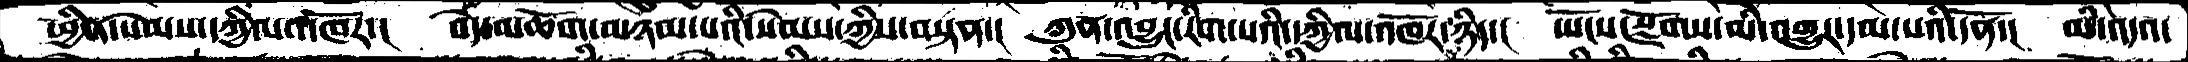ཕྱིན་སེམས་དཀྱིལ་འཁོར་།   བདེ་མཆོག་མཉམ་པའི་སེམས་ཀྱིས་བསྟན་།  ཀུན་འབྱུང་རིག་པའི་དཀྱིལ་འཁོར་ཉིད་།  ཡོངས་སྫོགས་མི་འགྱུར་དམ་པའི་དོན་།  མི་འདའ་
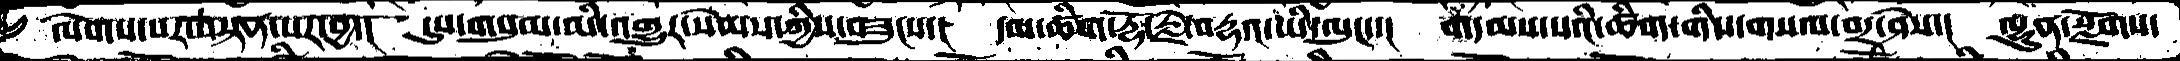ལེགས་པར་བསྟན་པར་བྱ་།  དུས་གསུམ་མི་འགྱུར་སེམས་ཀྱིས་བཟུངས་།  དམ་ཚིག་རྡོ་རྗེ་བརྡའ་ཡི་ལུང་་།   གདམས་པའི་ཚིག་གིས་གསལ་བར་ཤེས་།  ལྷུན་སྫོགས་
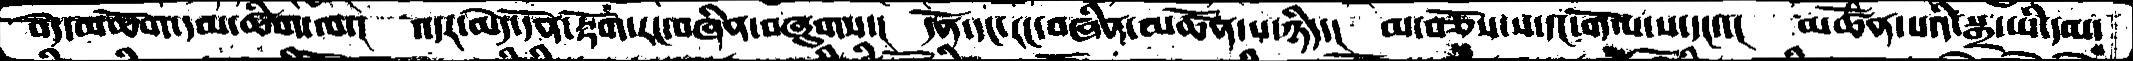བདེ་མཆོག་དམ་ཚིག་ལ་།   འདར་མེད་དོན་རྟོག་རང་བཞིན་བཞུགས་།  དོན་དང་རང་བཞིན་མཚོན་པ་ཉིད་།  མ་བཅོས་ས་དང་གོལ་ས་དང་་།  མཚོན་པའི་སྒྲ་ཡི་དམ་
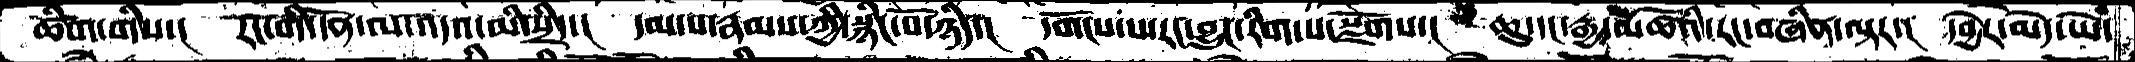ཚིག་གིས་།  རང་གི་དོན་ལ་འདའ་མི་སྲིད་།  དམ་པ་རྣམས་ཀྱི་སྙིང་པོ་ཉིད་།  དགོངས་པ་རང་བྱུང་རིག་པ་སྫོགས་།  ཆུ་དང་རྒྱ་མཚོའི་རང་བཞིན་ལྟར་།  དབྱེར་མེད་ཡེ་
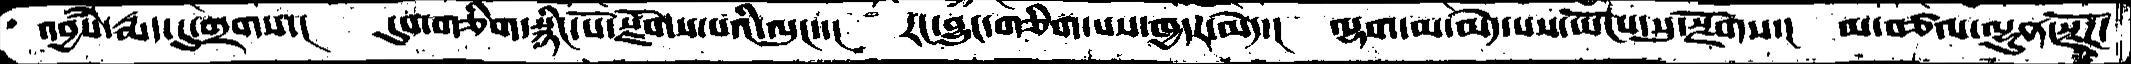འབྱཾས་རྨད་དུ་གྲགས་།  དུས་གཅིག་སྙིང་པོ་སྫོགས་པའི་ལུང་་།  རང་བྱུང་གཅིག་པས་ཁྱདར་མེད་།  ལྷག་མ་མེད་པས་ཡོངས་སུ་སྫོགས་།  མ་བཙལ་ལྷུན་སྫོཌ་
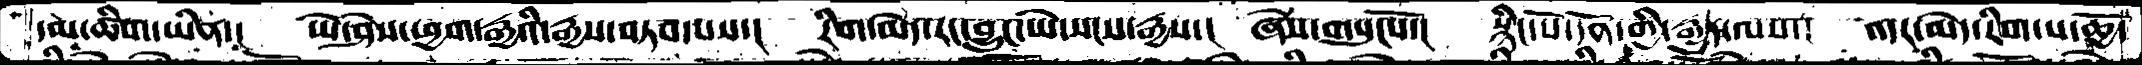དམ་ཚིག་ཡིན་།  ཡེ་ཤེས་ཕྱག་རྒྱའི་རྒྱས་བཏབ་པས་།  རིག་མེད་རང་བྱུང་ཡེ་སངས་རྒྱས་།  ཞེས་གསུངསོ་།  སྙིང་པོ་དོན་གྱི་རྒྱུད་ལས་།  འདར་མེད་རིག་པ་ཆྱོ་
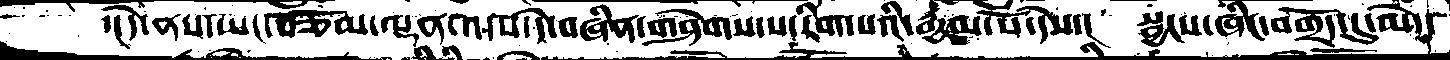་།དེ་ནས་ཡང་བཅོམ་ལྡན་འདས་དེ་བཞིན་གཤེགས་པ་རིག་པའི་རྒྱལ་པོ་དེས་།  སྦྱངས་ཞིང་བགྲོད་དུ་མེད་
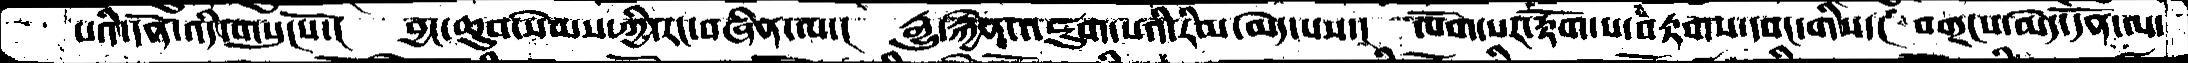པའི་དོན་འདི་་གསུངསོ་།  བྱང་ཆུབ་སེམས་ཀྱི་རང་བཞིན་ལ་།  རྒྱུ་རྐྱེན་འཇུག་པའི་རིམ་མེད་པས་།  ལོག་པར་རྟོག་པ་བརྟགས་དབང་གིས་།  བགྲངས་མེད་དོན་ལ
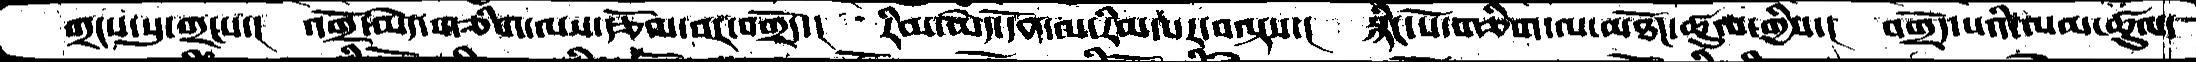གྲངས་སུ་གྲངས་།  འགྲོ་མེད་གཅིག་ལས་རྩོལ་བར་བགྲོད་།  རིམ་མེད་དོན་ལ་རིམ་པར་བལྟས་།  སྙིང་པོ་གཅིག་ལ་མཐོང་ཚུལ་གྱིས་།  བགྲོད་པའི་ལམ་ཚུལ་
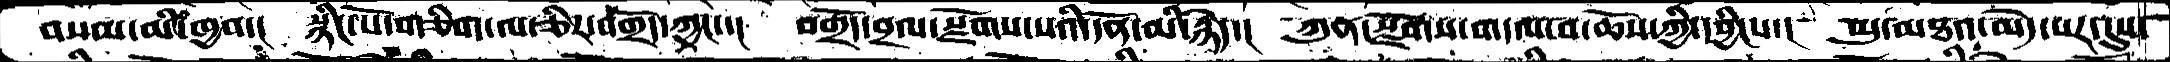བསམ་མི་ཁྱབ་།  སྙིང་པོ་གཅིག་ལ་ཅིར་བགྲོད་ཀྱང་་།  བགྲོད་བྲལ་སྫོགས་པའི་དོན་མི་རྙེད་།  ཀུན་སྫོགས་གདལ་བ་ཆོས་ཀྱི་དབྱིངས་།  མུ་མཐའ་མེད་པར་དུས་
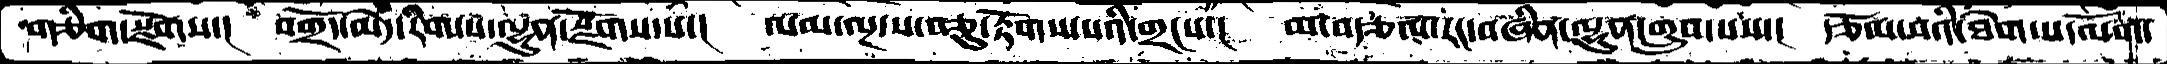གཅིག་སྫོགས་།  བགྲོད་མེད་རིག་པ་ལྷུན་སྫོགས་པ་།  ལམ་ལྔ་ས་བཅུ་རྟོགས་པའི་གྲངས་།  མ་བརྩལ་རང་བཞིན་ལྷུན་གྲུབ་པས་།  རྩོལ་བའི་ཐེག་པ་ལོག་
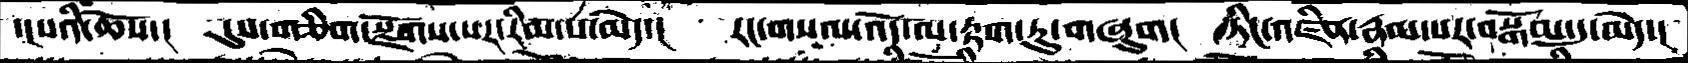་།པའི་ཆོས་།  དུས་གཅིག་སྫོགས་པར་རིམ་པ་མེད་།  རང་གསལ་འོད་ལ་རྟག་ཏུ་གཞུག།  ཏིང་འཛིན་རྣམ་པར་བསྒོམ་དུ་མེད་།
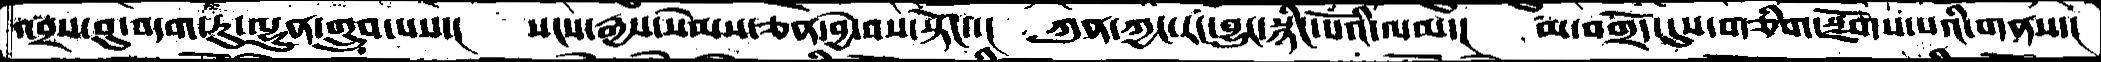འབྲས་བུ་བདག་ཏུ་ལྷུན་གྲུབ་པས་།  སངས་རྒྱས་སེམས་ཅན་བྱེ་བས་སྟོང་་།  ཀུན་ཀྱང་རང་བྱུང་སྙིང་པོའི་ལམ་།  མ་བགྲོད་དུས་གཅིག་སྫོགས་པའི་གནས་།
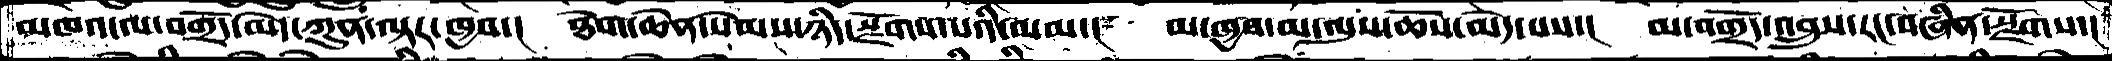མཁའ་ལ་བགྲོད་མེད་ཀུན་ལྟར་ཁྱབ་།  ཐེག་ཆེན་སེམས་ཉིད་སྫོགས་པའི་ལམ་།  མ་ཁྱབ་མ་ལུས་ཆོས་མེད་པས་།  མ་བགྲོད་འབྲུས་རང་བཞིན་སྫོགས་།
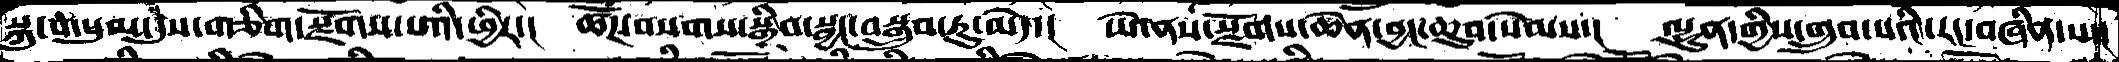སྐུ་གསུམ་དུས་གཅིག་སྫོགས་པའི་ཕྱིར་།  ཚོཌ་བསགས་སྒྲིབ་སྦྱང་བསྒྲུབ་ཏུ་མེད་།  ཡེ་ནས་སྫོགས་ཆེན་བྱང་ཆུབ་སེམས།  ལྷུན་གྱིས་གྲུབ་པའི་རང་བཞིན་པ་།
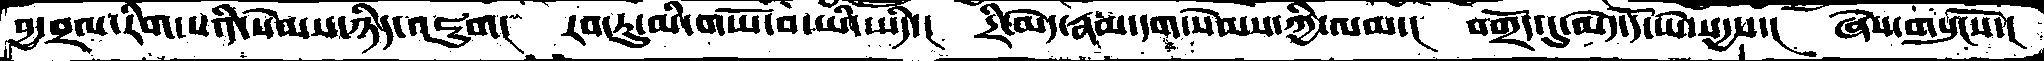བྱ་བྲལ་རིག་པའི་སེམས་ཉིད་འཇུག།  རབ་ཏུ་མི་གཡོ་བ་ཡི་ཡིད་།  དྲི་མེད་རྣམ་དག་སེམས་ཀྱི་ལམ་།  བགྲོད་དུ་མེད་དོ་ཡེ་སདྱས་།  ཞེས་གསུངསོ་།
